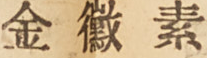金 黴 素
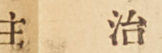主 治
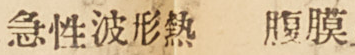急性波形熱 腹膜炎
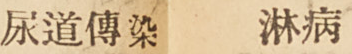尿道傳染 淋病
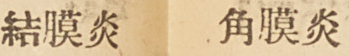結膜炎 角膜炎
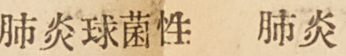肺炎球菌性 肺炎
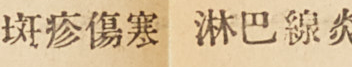斑疹傷寒 淋巴線炎
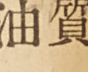油質
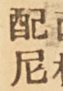配尼
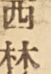西林
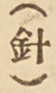（針）
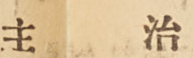主 治
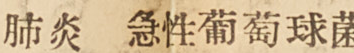肺炎 急性葡萄球菌
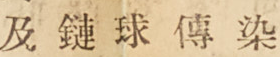及 鏈 球 傳 染
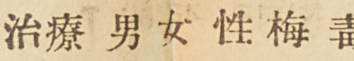治療 男 女 性 梅 毒
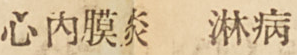心內膜炎 淋病
